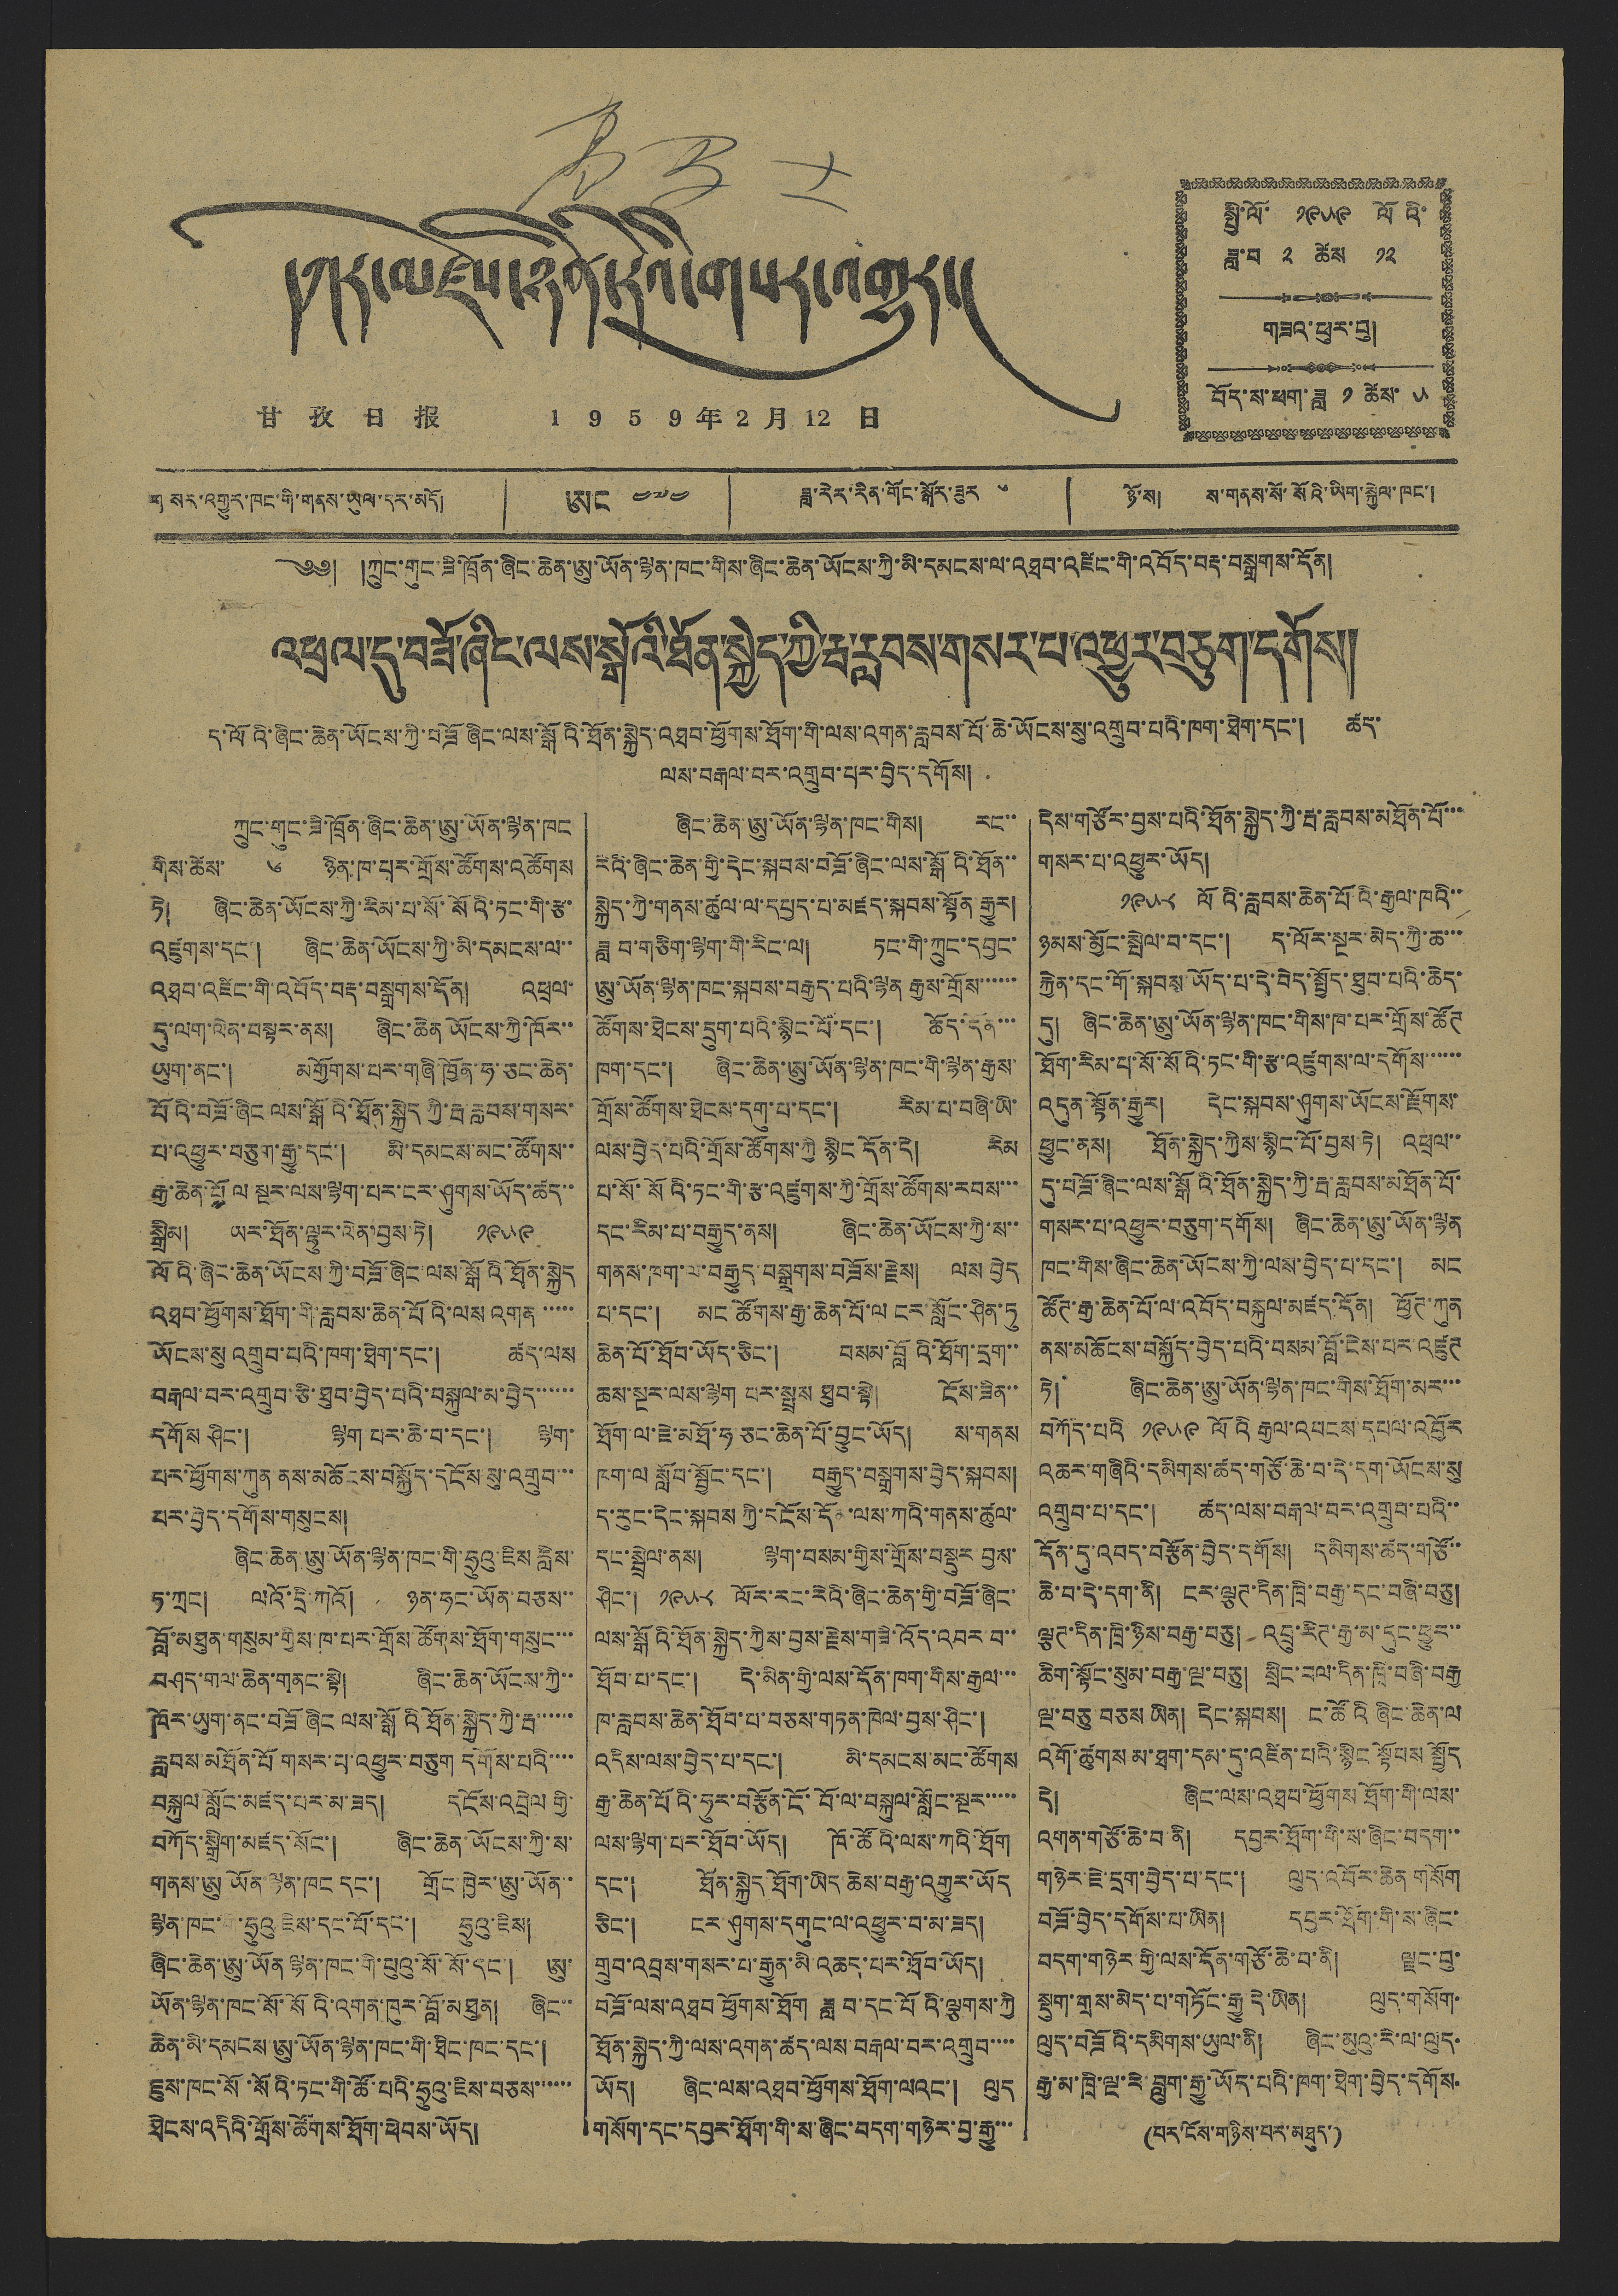དཀར་མཛེས་ཉིན་རེའི་གསར་འགྱུར།
甘 孜 日 报 1 9 5 9 年 2 月 12 日
སྤྱི་ལོ་ ༡༩༥༩ ལོའི་
ཟླ་བ་ ༢ ཚེས ༡༢
གཟའ་ཕུར་བུ།
བོད་ས་ཕག་ཟླ ༡ ཚེས ༥
༄༅། །ཀྲུང་གུང་ཟི་ཁྲོན་ཞིང་ཆེན་ཨུ་ཡོན་ལྷན་ཁང་གིས་ཞིང་ཆེན་ཡོངས་ཀྱི་མི་དམངས་ལ་འཐབ་འཛིང་གི་འབོད་བརྡ་བསྒྲགས་དོན།
འཕྲལ་དུ་བཟོ་ཞིང་ལས་སྒོའི་ཐོན་སྐྱེད་ཀྱི་རྦ་རླབས་གསར་པ་འཕྱུར་བཅུག་དགོས།
ད་ལོའི་ཞིང་ཆེན་ཡོངས་ཀྱི་བཟོ ཞིང་ལས་སྒོའི་ཐོན་སྐྱེད་འཐབ་ཕྱོགས་ཐོག་གི་ལས་འགན་རླབས་པོ་ཆེ་ཡོངས་སུ་འགྲུབ་པའི་ཁག་ཐེག་དང་། ཚད་
ལས་བརྒལ་བར་འགྲུབ་པར་བྱེད་དགོས།
ཀྲུང་གུང་ཟི་ཁྲོན་ཞིང་ཆེན་ཨུ་ཡོན་ལྷན་ཁང
གིས་ཚེས་ ༦ ཉིན་ཁ་པར་གྲོས་ཚོགས་འཚོགས
ཏེ། ཞིང་ཆེན་ཡོངས་ཀྱི་རིམ་པ་སོ་སོའི་ཏང་གི་རྩ་
འཛུགས་དང་། ཞིང་ཆེན་ཡོངས་ཀྱི་མི་དམངས་ལ་་
འཐབ་འཛིང་གི་འབོད་བརྡ་བསྒྲགས་དོན། འཕྲལ་
དུ་ལག་ལེན་བསྟར་ནས། ཞིང་ཆེན ཡོངས་ཀྱི་ཁོར་་
ཡུག་ནང་། མགྱོགས་པར་གཞི་ཁྱོན་ཧ་ཅང་ཆེན་
པོའི་བཟོ་ཞིང ལས་སྒོའི་ཐོན་སྐྱེད ཀྱི་རྦ་རླབས་གསར་
པ་འཕྱུར་བཅུག་རྒྱུ་དང་། མི་དམངས་མང་ཚོགས་་
རྒྱ་ཆེན་པོ ལ སྔར་ལས་ལྷག་པར་ངར་ཤུགས་ཡོད་ཚད་་
སྒྲིམ། ཡར་ཐོན་ལྷུར་ལེན་བྱས་ཏེ། ༡༩༥༩
ལོའི་ཞིང་ཆེན་ཡོངས་ཀྱི་བཟོ་ཞིང་ལས་སྒོའི ཐོན་སྐྱེད
འཐབ་ཕྱོགས་ཐོག་གི་རླབས་ཆེན་པོའི་ལས འགན་་་་་
ཡོངས་སུ འགྲུབ་པའི་ཁག་ཐེག་དང་། ཚད་ལས
བརྒལ་བར་འགྲུབ་ཅི་ཐུབ་བྱེད་པའི་བསྐུལ་མ་བྱེད་་་་་་
དགོས ཤིང་། ལྷག་པར་ཆེ་བ་དང་། ལྷག་
པར་ཕྱོགས་ཀུན ནས་མཆོངས་བསྐྱོད་དངོས སུ་འགྲུབ་་་
པར་བྱེད་དགོས་གསུངས།
ཞིང་ཆེན་ཨུ་ཡོན་ལྷན་ཁང་གི་ཧྲུའུ་ཇིས རླིས་
ཏ་ཀྲང། ལའོ་དྲིས་ཀའོ། ཉན་ཧང་ཡོན་བཅས་་
བློན་མཐུན་གསུམ་གྱིས་ཁ་པར་གྲོས ཚོགས་ཐོག་གསུང་་་
བཤད་གལ་ཆེན་གནང་སྟེ། ཞིང་ཆེན་ཡོངས་ཀྱི་་
ཁོར་ཡུག་ནང་བཟོ་ཞིང ལས་སྒོའི་ཐོན་སྐྱེད་ཀྱི་རྦ་་་་་་
རླབས་མཐོན་པོ གསར་པ་འཕྱུར་བཅུག དགོས་པའི་་་་
བསྐུལ་སློང་མཛད་པར་མ་ཟད། དངོས་འབྲེལ གྱི་
བཀོད་སྒྲིག་མཛད་སོང་། ཞིང་ཆེན་ཡོངས་ཀྱི་ས་
གནས་ཨུ ཡོན་ལྷན་ཁང དང་། གྲོང་ཁྱེར་ཨུ་ཡོན་་
ལྷང་ཁང་གི་ཧྲུའུ ཇིས་དང་པོ་དང་། ཧྲུའུ་ཇིས།
ཞིང་ཆེན་ཨུ་ཡོན ལྷན་ཁང་གི་པུའུ་སོ་སོ་དང་། ཨུ་
ཡོན་ལྷན་ཁང་སོ་སོའི་འགན་ཁུར་བློ་མཐུན། ཞིང་་
ཆེན་མི་དམངས་ཨུ་ཡོན་ལྷན་ཁང་གི་ཐིང་ཁང་དང་།
ཇུས་ཁང་སོ་སོའི་ཏང་གི་ཚོ་པའི་ཧྲུའུ་ཇིས་བཅས་་་་་་
ཐེངས་འདིའི་གྲོས་ཚོགས་ཐོག་ཕེབས་ཡོད།
ཞིང་ཆེན་ཨུ་ཡོན་ལྷན་ཁང་གིས། རང་་
རེའི་ཞིང་ཆེན་གྱི་དེང་སྐབས་བཟོ་ཞིང་ལས་སྒོའི་ཐོན་་
སྐྱེད་ཀྱི་གནས་ཚུལ་ལ་དཔྱད་པ་མཛད་སྐབས་སྟོན་རྒྱུར།
ཟླ བ་གཅིག་ལྷག་གི་རིང་ལ། ཏང་གི་ཀྲུང་དབྱང་
ཨུ་ཡོན་ལྷན་ཁང་སྐབས་བརྒྱད་པའི་ལྷན རྒྱས་གྲོས་་་་་་
ཚོགས་ཐེངས་དྲུག་པའི་སྙིང་པོ་དང་། ཆོད་དོན་་་
ཁག་དང་། ཞིང་ཆེན་ཨུ་ཡོན་ལྷན་ཁང་གི་ལྷན་རྒྱས་
གྲོས་ཚོགས་ཐེངས་དགུ་པ་དང་། རིམ་པ་བཞི་ཡི་
ལས་བྱེད་པའི་གྲོས་ཚོགས་ཀྱི སྙིང དོན་དེ། རིམ
པ་སོ་སོའི་ཏང་གི་རྩ་འཛུགས་ཀྱི་གྲོས་ཚོགས་རབས་་་
དང་རིམ་པ་བརྒྱུད་ནས། ཞིང་ཆེན་ཡོངས་ཀྱི་ས་་
གནས་ཁག་ལ་བརྒྱུད་བསྒྲགས་བཟོས་རྗེས། ལས བྱེད
པ་དང་། མང་ཚོགས་རྒྱ་ཆེན་པོ་ལ ངར་སློང་ཤིན་ཏུ
ཆེན་པོ་ཐོབ་ཡོད་ཅིང་། བསམ་བློའི་ཐོག་དྲག་་
ཆས་སྔར་ལས་ལྷག པར་སྤྲས ཐུབ་སྟེ། ངོས་ཟིན་་
ཐོག་ལ་ཇེ་མཐོ་ཧ ཅང་ཆེན་པོ་བྱུང་ཡོད། ས་གནས
ཁག་ལ སློབ་སྦྱོང་དང་། བརྒྱུད་བསྒྲགས་བྱེད་སྐབས།
ད་རུང་དེང་སྐབས ཀྱི་དངོས་དོམ་ལས་ཀའི་གནས་ཚུལ་
དང་སྦྲེལ་ནས། ལྷག་བསམ་གྱིས་གྲོས་བསྡུར བྱས་
ཤིང་། ༡༩༥༨ ལོར་རང་རེའི་ཞིང་ཆེན་གྱི་བཟོ་ཞིང་
ལས་སྒོའི་ཐོན་སྐྱེད་ཀྱིས་བྱས་རྗེས་གཟི་འོད་འབར་བ་་
ཐོབ་པ་དང་། དེ་མིན་གྱི་ལས་དོན་ཁག་གིས་རྒྱལ་་་
ཁ་རབས་ཆེན་ཐོབ་པ་བཅས་གཏན་ཁེལ་བྱས་ཤིང་།
འདིས་ལས་བྱེད་པ་དང་། མི་དམངས་མང་ཚོགས
རྒྱ་ཆེན་པོའི་ཧུར་བརྩོན་ངོ་བོ་ལ་བསྐུལ་སློང་སྔར་་་་་
ལས་ལྷག་པར་ཐོབ་ཡོད། ཁོ་ཚོའི་ལས་ཀའི་ཐོག
དང་། ཐོན་སྐྱེད ཐོག་ཡིད ཆེས་བརྒྱ་འགྱུར་ཡོད
ཅིང་། ངར ཤུགས་དགུང་ལ་འཕྱུར་བ་མ་ཟད།
གྲུབ་འབྲེས་གསར་པ་རྒྱུན་མི་འཆད་པར་ཐོབ་ཡོད།
བཟོ་ལས་འཐབ ཕྱོགས་ཐོག ཟླ བ་དང་པོའི་ལྕགས་ཀྱི
ཐོན་སྐྱེད་ཀྱི་ལས་འགན་ཚད་ལས་བརྒལ་བར་འགྲུབ་་་་
ཡོད། ཞིང་ལས་འཐབ་ཕྱོགས་ཐོག་ལའང་། ལུད
གསོག་དང་དབྱར་ཐོག་གི་ས་ཞིང་བདག་གཉེར་བྱ་རྒྱུ་་་
དེས་གཙོར་བྱས་པའི་ཐོན་སྐྱེད་ཀྱི་རྦ་རླབས་མཐོན་པོ་་་
གསར་པ་འཕྱུར་ཡོད།
༡༩༥༨ ལོའི་རླབས་ཆེན་པོའི་རྒྱལ་ཁའི་་
ཉམས་མྱོང་སྤེལ་བ་དང་། ད་ལོར་སྔར་མེད་ཀྱི་ཆ་་་
རྐྱེན་དང་གོ་སྐབས་ཡོད་པ་དེ་བེད་སྤྱོད་ཐུབ་པའི་ཆེད་
དུ། ཞིང་ཆེན་ཨུ་ཡོན་ལྷན་ཁང་གིས་ཁ་པར་གྲོས་ཚོཊ
ཐོག་རིམ་པ་སོ་སོའི་ཏང་གི་རྩ་འཛུགས་ལ་དགོས་་་་་་
འདུན་སྟོན་རྒྱུར། དེང་སྐབས་ཤུགས་ཡོངས་རྫོགས་
ཕྱུང་ནས། ཐོན་སྐྱེད་ཀྱིས་སྙིང་པོ་བྱས་ཏེ། འཕྲལ་་
དུ་བཟོ་ཞིང་ལས་སྒོའི་ཐོན་སྐྱེད་ཀྱི་རྦ་རླབས་མཐོན་པོ་
གསར་པ་འཕྱུར་བཅུག་དགོས། ཞིང་ཆེན་ཨུ་ཡོན་ལྷན
ཁང་གིས་ཞིང་ཆེན་ཡོངས་ཀྱི་ལས་བྱེད་པ་དང་། མང
ཚོཊ་རྒྱ་ཆེན་པོ་ལ་འབོད་བསྐུལ་མཛད་དོན། ཕྱོཊ་ཀུན
ནས་མཆོངས་བསྐྱོད་བྱེད་པའི་བསམ་བློ་ངེས་པར་འཛུཊ
ཏེ། ཞིང་ཆེན་ཨུ་ཡོན་ལྷན་ཁང་གིས་ཐོག་མར་་་
བཀོད་པའི ༡༩༥༩ ལོའི རྒྱལ་འབངས་དཔལ་འབྱོར
འཆར་གཞིའི་དམིགས་ཚད་གཙོ་ཆེ་བ་དེ་དག་ཡོངས་སུ
འགྲུབ་པ་དང་། ཚད་ལས་བརྒལ་བར་འགྲུབ་པའི་་
དོན་དུ་འབད་བརྩོན་བྱེད་དགོས། དམིགས་ཚད་གཙོ་་
ཆེ་བ་དེ་དག་ནི། ངར་ལྕཊ་དིན་ཁྲི་བརྒྱ་དང་བཞི་བཅུ།
ལྕཊ་དིན་ཁྲི་ཉིས་བརྒྱ་བཅུ། འབྲུ་རིཊ་རྒྱ་མ་དུང་ཕྱུར་་
ཆིག་སྟོང་སུམ་བརྒྱ་ལྔ་བཅུ། སྲིང་བལ་དིན་ཁྲི་བཞི་བརྒྱ
ལྔ་བཅུ བཅས ཡིན། དེང་སྐབས། ང་ཚོའི ཞིང་ཆེན་ལ
འགོ་ཚུགས མ་ཐག་དམ་དུ་འཛིན་པའི་སྙིང སྟོབས སྤྱོད
དེ། ཞིང་ལས་འཐབ་ཕྱོགས ཐོག་གི་ལས་
འགན་གཙོ་ཆེ་བ་ནི། དབྱར་ཐོག་གི་ས་ཞིང་བདག་་
གཉེར་ཇེ་དྲག་བྱེད་པ་དང་། ལུད་འབོར་ཆེན གསོག
བཟོ་བྱེད་དགོས་པ་ཡིན། དབྱར་ཐོག་གི་ས་ཞིང་
བདག་གཉེར གྱི་ལས་དོན་གཙོ་ཆེ་བ་ནི། ལྗང་བུ་
སྡུག་གྲས་མེད་པ་གཏོང་རྒྱུ་དེ་ཡིན། ལུད་གསོག་
ལུད་བཟོའི་དམིགས་ཡུལ་ནི། ཞིང་མུའུ་རེ་ལ་ལུད་
རྒྱ་མ་ཁྲི་ལྔ་རེ་བླུག་རྒྱུ་ཡོད་པའི་ཁག་ཐེག་བྱེད་དགོས་
(པར་ངོས་གཉིས་པར་མཐུད་)
